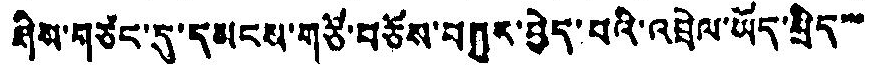ཤིས་གཙང་དུ་དམངས་གཙོ་བཅོས་བཀུར་བྱེད་པའི་འབྲེལ་ཡོད་སྲིད་་་
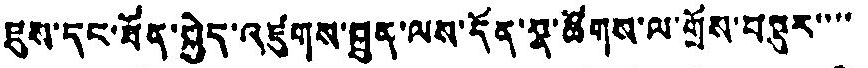ཇུས་དང་ཐོན་སྐྱེད་འཛུགས་ཐུན་ལས་དོན་སྣ་ཚོགས་ལ་གྲོས་བསྡུར་་་་
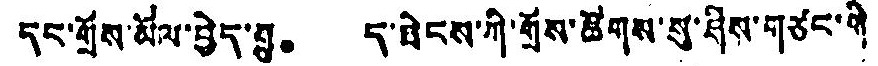དང་གྲོས་མོལ་བྱེད་རྒྱུ。 ད་ཐེངས་ཀི་གྲོས་ཚོགས་སུ་ཤིས་གཙང་གི
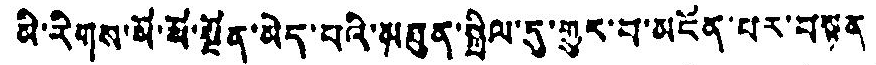མི་རིགས་མོ་སོ་སྔོན་མེད་པའི་མཐུན་སྒྲིལ་དུ་གྱུར་བ་མངོན་པར་བསྟན
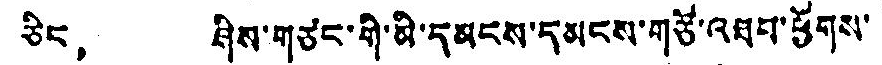ཅིང， ཤིས་གཙང་གི་མི་དམངས་དམངས་གཙོ་འཐབ་ཕྱོགས་
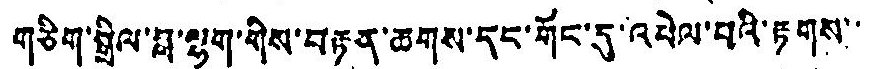གཅིག་སྒྲིལ་བླ་ལྷག་གིས་བརྟན་ཆགས་དང་གོང་དུ་འཕེལ་བའི་རྟགས་་
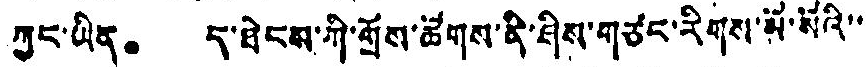ཀྱང་ཡིན。 ད་ཐེངས་ཀྱི་གྲོས་ཚོགས་ནི་ཤིས་གཙང་རིགས་མོ་སོའི་་
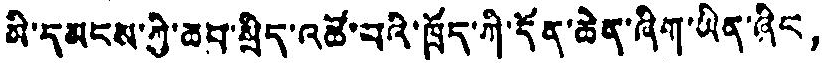མི་དམངས་ཀྱི་ཆབ་སྲིད་འཚོ་བའི་ཁྲོད་ཀི་དོན་ཆེན་ཞིག་ཡིན་ཞིང，
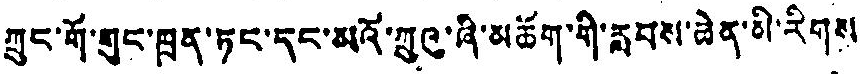ཀྲུང་གོ་གུང་ཁྲན་ཏང་དང་མའོ་ཀྲུའུ་ཞི་མཆོག་གི་རླབས་ཆེན་མི་རིགས་
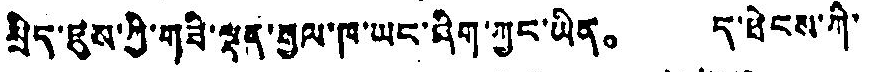སྲིད་ཛུས་ཀྱི་གཟི་ལྡན་རྒྱལ་ཁ་ཡང་ཤིག་ཀྱང་ཡིན。 ད་ཐེངས་ཀི་
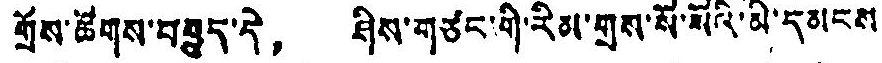གྲོས་ཚོགས་བརྒྱུད་དེ， ཤིས་གཙང་གི་རིམ་གྲས་སོ་སོའི་མི་དམངས་
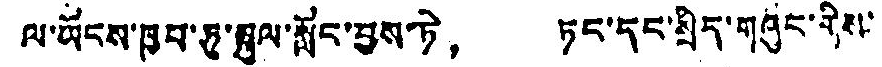ལ་ཡོངས་ཁྱབ་ཏུ་སྐུལ་སློང་བྱས་ཏེ， ཏང་དང་སྲིད་གཞུང་གིས་
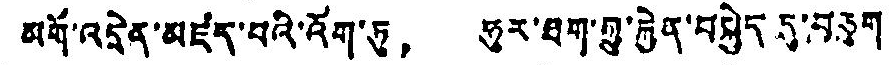མགོ་འདྲེན་མཛད་པའི་འོག་ཏུ， ཧུར་ཐག་ཀྱུ་རྐྱེན་བསྐྱེད དུ་བཅུག
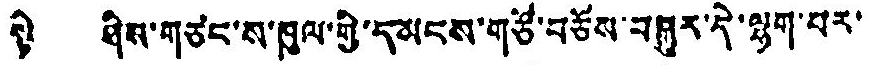སྟེ ཤིས་གཙང་ས་ཁུལ་གྱི་དམངས་གཙོ་བཅོས་བསྒྱུར་དེ་ལྷག་པར་
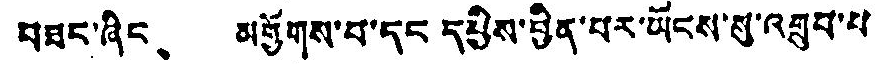བཟང་ཞིང、 མགྱོགས་པ་དང དཔྱིས་བྱིན་པར་ཡོངས་སུ་འགྲུབ་པ
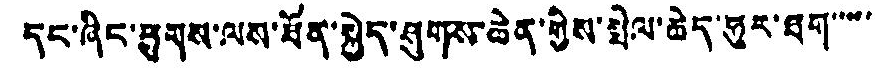དང་ཞིང་ཕྱུགས་ལས་ཐོན་སྐྱེད་ཤུགས་ཆེན་གྱིས་སྤེལ་ཆེད་ཧུར་ཐག་་་་་་
